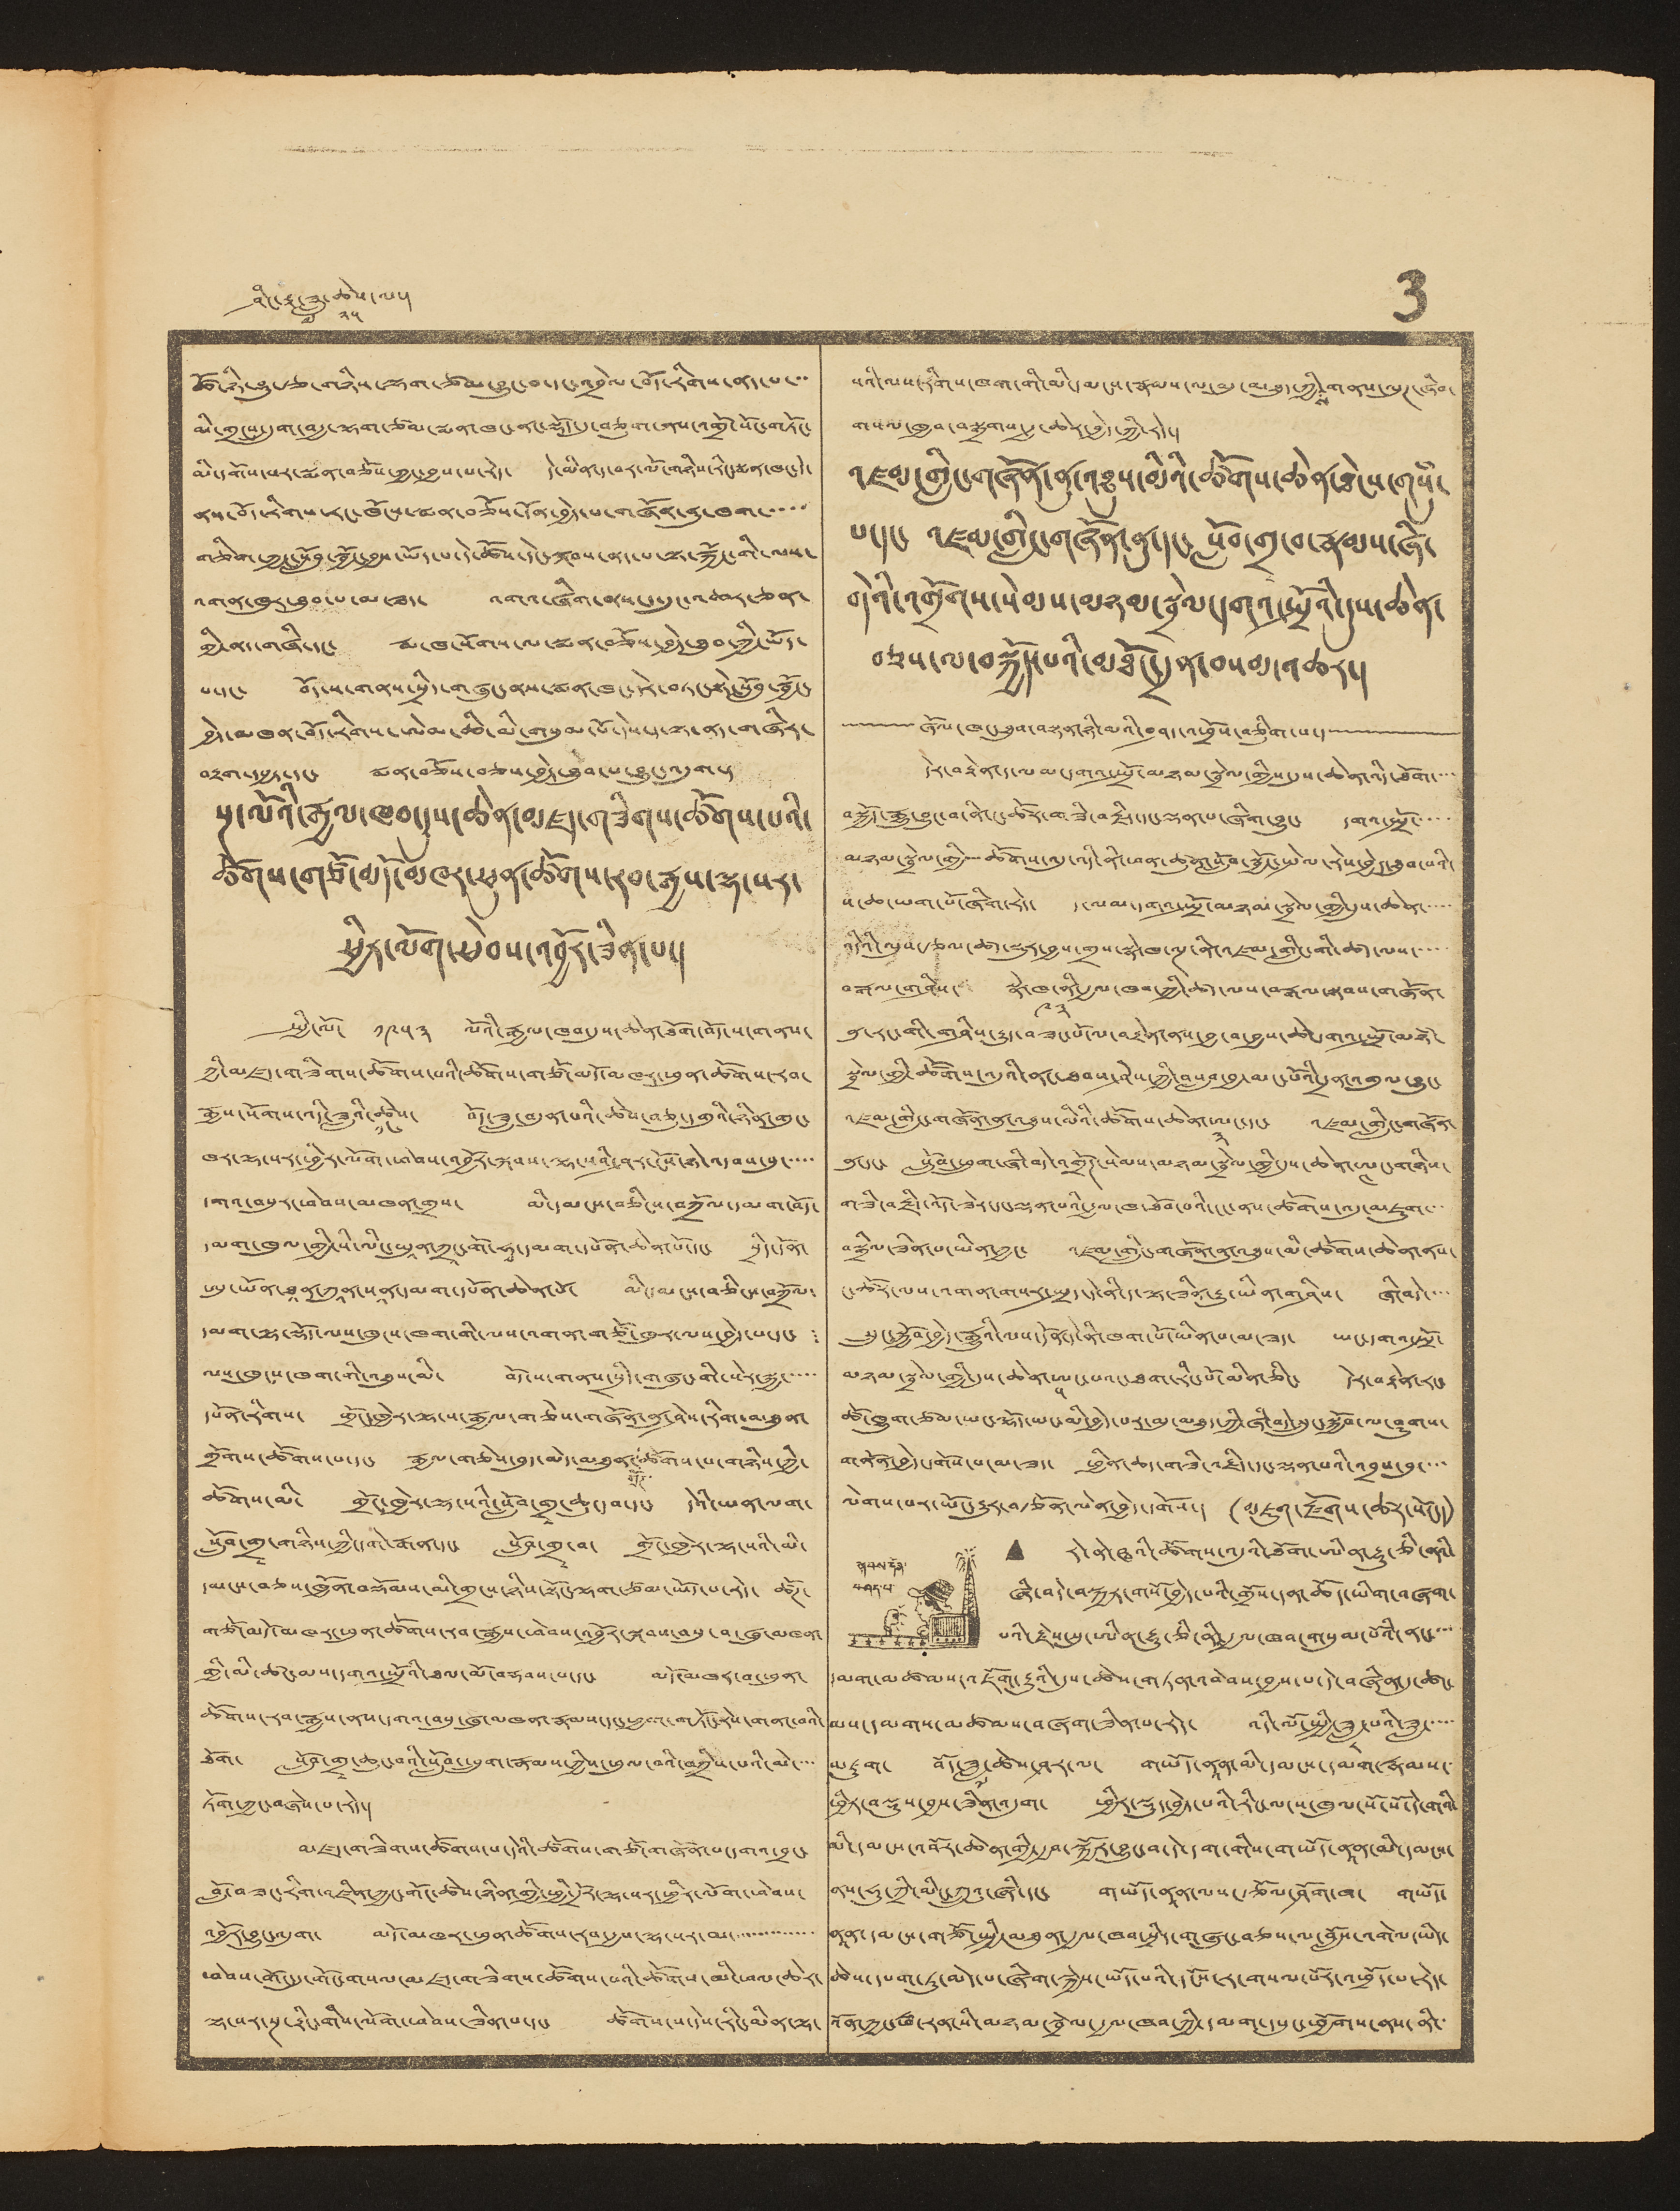ཤིང་རྟ་ཟླ་
༧
ཚེས་
༢༥
ལ་།
ཚོ་ཉི་ཤུ་རྩ་གཉིས་ལྷག་ཙམ་བྱུང་བ་དང་འབྲེལ་བོད་རིགས་ནད་པ་་་
མི་གྲངས་དྲུག་བརྒྱ་ལྷག་ཙམ་སྨན་ཁང་ནང་སྡོད་དུ་བཅུག་ནས་འགྲོ་སོང་གཏོང་
མི་དགོས་པར་སྨན་བཅོས་ཀྱང་བྱས་པ་རེད་ དེ་མིན་ད་བར་ལོ་གཉིས་རིང་སྨན་ཁང་དེ་
ནས་བོད་རིགས་རང་ཁོངས་སྨན་བཅོས་དོན་བྱེད་པ་གཞོན་ནུ་ཁག་་་་་
གཅིག་ཀྱང་སློབ་སྦྱོང་བྱས་ཡོད་པ་དེ་ཚོས་དེང་སྐབས་ནད་པ་ལྟ་སྐྱོང་གི་ལས་
འགན་ཁུར་ཐུབ་པ་མ་ཟད་ འགའ་ཞིག་ནས་ད་དུང་འཆར་ཅན་
གྱི་ནད་གཞི་དང་ རྨ་ཁ་སོགས་ལ་སྨན་བཅོས་བྱེད་ཐུབ་ཀྱི་ཡོད་
པ་དང་ བོད་ས་གནས་སྲིད་གཞུང་ནས་སྨན་ཁང་དེར་བཏང་སྟེ་སློབ་སྦྱོང་
བྱེད་མཁན་བོད་རིགས་ཨེམ་ཆི་མི་གསུམ་པོ་དེས་ད་ལྟ་ནད་གཞིར་
བརྟག་དཔྱད་དང་ སྨན་བཅོས་བཅས་བྱེད་ཐུབ་པ་བྱུང་འདུག་།
སྔ་ལོའི་རྒྱལ་ཁབ་དུས་ཆེན་མཛད་གཟིགས་ཚོགས་པའི་
ཚོགས་གཙོ་མདོ་མཁར་ཕུན་ཚོགས་རན་རྒྱས་ལྷ་སར་
ཕྱིར་ལོག་ཕེབས་འབྱོར་ཟིན་པ་།
སྤྱི་ལོ་ ༡༩༥༣ ལོའི་རྒྱལ་ཁབ་དུས་ཆེན་ཐོག་བོད་ས་གནས་
ཀྱི་མཛད་གཟིགས་ཚོགས་པའི་ཚོགས་གཙོ་མདོ་མཁར་ཕུན་ཚོགས་རབ་
རྒྱས་སོགས་འདི་ཟླའི་ཚེས་
༡༦
བོད་ཟླ་བདུན་པའི་ཚེས་བཅུ་དགུའི་ཉིན་གུང་
ཁར་ལྷ་སར་ཕྱིར་ལོག་ཕེབས་འབྱོར་སྐབས་ལྷ་སའི་ཤར་ངོས་ཉེ་འདབས་སུ་་་་་
དགའ་བསུར་ཕེབས་མཁན་གྲས་ མི་དམངས་བཅིངས་བཀྲོལ་དམག་བོད་
དམག་ཁུལ་གྱི་སི་ལིང་ཡཱུན་ཀྲཱང་གོ་ཧྭ་དམག་དཔོན་ཆེན་པོ་དང་ སྲིད་དོན་
ཨུ་ཡོན་ཐཱན་ཀཱུན་སཱན་དམག་དཔོན་ཆེན་པོ་ མི་དམངས་བཅིངས་བཀྲོལ་
དམག་ལྷ་སྡོད་ལས་ཁུངས་ཁག་གི་ལས་འགན་གཙོ་ཁུར་ལས་བྱེད་པ་དང་ །
ལས་ཁུངས་ཁག་གི་འཐུས་མི་ བོད་ས་གནས་སྲིད་གཞུང་གི་སེར་སྐྱ་་་་་
དཔོན་རིགས་ གྲོང་ཁྱེར་ལྷ་ས་རྒྱལ་གཅེས་གཞོན་ནུ་ཤེས་རིག་མཐུན་
གྲོགས་ཚོགས་པ་དང་ རྒྱལ་གཅེས་བུད་མེད་མཐུན་
གྲོཊ་
ཚོགས་པ་གཉིས་ཀྱི་
ཚོགས་མི་ གྲོང་ཁྱེར་ལྷ་སའི་སློབ་གྲྭ་ཆུང་བ་དང་ དེའི་ཡན་ལག་
སློབ་གྲྭ་གཉིས་ཀྱི་དགེ་རྒན་དང་ སློབ་གྲྭ་བ་ གྲོང་ཁྱེར་ལྷ་སའི་མི་
དམངས་བཅས་ཁྱོན་བསྡོམས་མི་གྲངས་ཉིས་སྟོང་ལྷག་ཙམ་ཡོད་པ་རེད་ ཚོཊ་
གཙོ་མདོ་མཁར་ཕུན་ཚོགས་རབ་རྒྱས་ཕེབས་འབྱོར་སྐབས་བསུ་བ་ཞུ་མཁན་
གྱི་མི་ཚང་མས་དགའ་སྤྲོའི་ཐལ་མོ་བརྡབས་པ་དང་ མདོ་མཁར་བ་ཕུན་
ཚོགས་རབ་རྒྱས་ནས་དགའ་བསུ་ཞུ་མཁན་རྣམས་དང་ཕྱག་གཏོང་རེས་གནང་བའི་
ཐོག་ སློབ་གྲྭ་ཆུང་བའི་སློབ་ཕྲུག་རྣམས་ཀྱིས་ཕུལ་བའི་བཀྲིས་པའི་མེ་་་་
ཏོག་ཀྱང་བཞེས་པ་རེད་།
མཛད་གཟིགས་ཚོགས་པ་དེའི་ཚོགས་གཙོ་གཞོན་པ་དགའ་བྲང་
བློ་བཟང་རིག་འཛིན་ཀྱང་གོང་ཚེས་ཉིན་གྱི་ཕྱི་དྲོར་ལྷ་སར་ཕྱིར་ལོག་ཕེབས་
འབྱོར་བྱུང་འདུག་ མདོ་མཁར་ཕུན་ཚོགས་རབ་རྒྱས་ལྷ་སར་མ་་་་་་་་་་་་་་
ཕེབས་གོང་དུ་གོང་གསལ་མཛད་གཟིགས་ཚོགས་པའི་ཚོགས་མི་ཕལ་ཆེར་
ལྷ་སར་སྔ་རྟིང་གིས་ལོག་ཕེབས་ཟིན་པ་དང་ ཚོགས་ས་དེས་རིང་མིན་ལྷ་
པའི་ལས་རིགས་ཁག་གི་མི་དམངས་རྣམས་ལ་མུ་མཐུད་ཀྱི
ས
་གནས་ལུཊ་ཞིབ་
གསལ་ཁྱབ་བསྒྲགས་རྒྱ་ཆེར་བྱེད་ཀྱི་རེད་།
འཛམ་གླིང་གཞོན་ནུ་མིའི་ཚོགས་ཆེན་ཐེངས་གསུཾ་
པ་དང་ འཛམ་གླིང་གཞོན་ནུ་དང་ སློབ་གྲྭ་བ་རྣམས་ཞི་
བདེའི་འགྲོགས་སེམས་མཉམ་སྦྲེལ་དགའ་སྤྲོའི་དུས་ཆེན་
བཅས་ལ་བསྐྱོད་པའི་མཐོང་དྲན་བསམ་འཆར་།
ཞོལ་ཁང་ཐུབ་བསྟན་ཉི་མའི་བཤད་འཕྲོས་བཅིུག་པ་།
དེར་བརྟེན་ད་ལམ་དགའ་སྤྲོ་མཉམ་སྦྲེལ་གྱིས་དུས་ཆེན་འདི་ཐོག་་་་
བསྐྱོད་རྒྱུ་བྱུང་བ་ནི་ང་ཚོར་གཟི་བརྗིད་དང་ལྡན་པ་ཞིག་བྱུང་ དགའ་སྤྲོ་་་་་
མཉམ་སྦྲེལ་གྱི་་་ཚོགས་འདུ་འདི་ནི་ཕན་ཚུན་སློབ་སྦྱོང་སྤེལ་རེས་བྱེད་ཐུབ་པའི་
ས་ཆ་ཡག་པོ་ཞིག་རེད་ ད་ལམ་དགའ་སྤྲོ་མཉམ་སྦྲེལ་གྱི་དུས་ཆེན་་་་་
འདིའི་ལུས་རྩལ་ཚད་སྡུར་བྱས་གྲས་སྣེ་ཁ་ལྔ་ནི་འཛམ་གླིང་གི་ཚད་ལས་་་་
བརྒལ་གཤིས་ སྣེ་ཁ་
༩༣
ནི་རྒྱལ་ཁབ་ཀྱི་ཚད་ལས་བརྒལ་སྟབས་གཞོན་
ནུ་རང་གི་གཤིས་རྒྱུད་བཟང་པོ་ལ་བརྟེན་ནས་བྱ་བ་བྱས་ཚེ་དགའ་སྤྲོ་མཉཾ་
སྦྲེལ་གྱི་ཚོགས་འདུའི་ནང་ཐབས་ཤེས་ཀྱི་བསལབ་བྱ་མང་པོའི་དྲན་འགུལ་བྱུང་
འཛམ་གླིང་གཞོན་ནུ་འཐུས་མིའི་ཚོགས་ཆེན་ཨང་
༣
དང་ འཛམ་གླིང་གཞོན་
ནུ་དང་ སློབ་ཕྲུག་ཞི་བདེ་འགྲོཊ་སེམས་མཉམ་སྦྲེལ་གྱི་དུས་ཆེན་ཨང་
༤
གཉིས་
གཟི་བརྗིད་འོད་ཟེར་དང་ལྡན་པའི་རྒྱལ་ཁ་ཐོབ་པའི་ངང་ནས་ཚོགས་འདུ་མཇུག་་་
བསྒྲིལ་ཟིན་པ་ཡིན་ཀྱང་ འཛམ་གླིང་གཞོན་ནུ་འཐུས་མི་ཚོགས་ཆེན་ནས་
ང་ཚོར་ལས་འགན་གསར་སྤྲད་དེ་ནི་ད་ལྟ་ཟིན་རྒྱུ་ཡིན་གཤིས་ ཞི་བདེ་་་་
སྲུང་སྐྱོབ་བྱེད་རྒྱུའི་ལས་དོན་དེ་ནི་ཁག་པོ་ཡིན་པ་མ་ཟད་ ཡང་དགའ་སྤྲོ་
མཉམ་སྦྲེལ་གྱི་དུས་ཆེན་ཨང་
༥
པའང་ཐག་རིང་པོ་མིན་ཅིང་ དེར་བརྟེན་རང་
ཚོ་ཁྱུག་ཙམ་ཡང་ལྷོད་ཡང་མི་བྱེད་པར་མུ་མཐུད་ཀྱི་ཞི་བདེ་སྲུང་སྐྱོབ་ལ་ཤུགས་
གནོན་བྱེད་དགོས་པ་མ་ཟད་ ཕྱིན་ཆད་གཟི་བརྗིད་ལྡན་པའི་འབྲས་བུ་་་་
ལེགས་པར་ཡོང་རྒྱུར་བརྩོན་ལེན་བྱེད་དགོས་། (མཇུག་རྫོགས་ཚར་སོང་།)
སྐབས་དོན་
བཤད་པ་
• རེ་ནེ་ཝའི་ཚོགས་འདུའི་ཐོག་ཨིན་རྷུ་ཅི་ནའི་
ཞི་བདེ་བསྐྱར་གསོ་བྱེདཔའི་གྲོས་དན་ཆོད་ཡིག་བཞག་
པའི་རྗེས་སུ་ཨིན་རྷུ་ཅི་ནི་རྒྱལ་ཁབ་གསུམ་པོའི་ནང་་་་
དམག་མཚམས་འཇོག་རྒྱུའི་དུས་ཚེས་གཏན་འབེབས་བྱས་པ་དེ་བཞིན་དུ་ཚང་
མས་དམགས་མཚམས་བཞག་ཟིན་པ་རེད་ འདི་ལོ་སྤྱི་ཟླ་
༨
པའི་ཟླ་་་་་
མཇུག་ བོད་ཟླ་
༧
ཚེས་ཤར་ལ་ གཡོད་ནཱན་མི་དམངས་དམག་རྣམས་་
ཕྱིར་བསྡུས་བྱས་ཟིན་འདུག་ ཕྱིར་སྡུད་བྱེད་པའི་རིང་ལ་ས་ཁུལ་སོ་སོ་དེ་གའི་
མི་དམངས་འབོར་ཆེན་གྱི་རྒྱབ་སྐྱོར་བྱུང་བ་དེ་དག་གིས་གཡོད་ནཱན་མི་དམངས་
ནས་ཧུ་ཀྲི་མིང་ཀྲུའུ་ཞི་དང་ གཡོད་ནཱན་ལས་རྩོལ་ཤོག་ཁ་ གཡོད་
ནཱན་དམངས་གཙོ་སྤྱི་མཐུན་རྒྱལ་ཁབ་སྲིད་གཞུང་བཅས་ལ་བློས་འགེལ་ཡིད་
ཆེས་དཔག་ཏུ་མེད་པ་ཞིག་སྐྱེས་ཡོད་པའི་དངོས་ར་གསལ་པོར་འཕྲོད་པ་རེད་
འོན་ཀྱང་ཧྥ་རན་སི་མཉམ་སྦྲེལ་རྒྱལ་ཁབ་ཀྱི་དམག་དཔུང་ཕྱོགས་ནས་ནི་་
